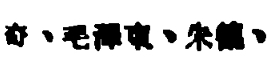奇、毛澤東、朱德、
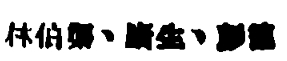林伯渠、康生、彭德
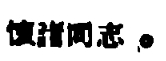懷諸同志。
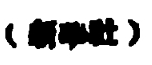（新華社）
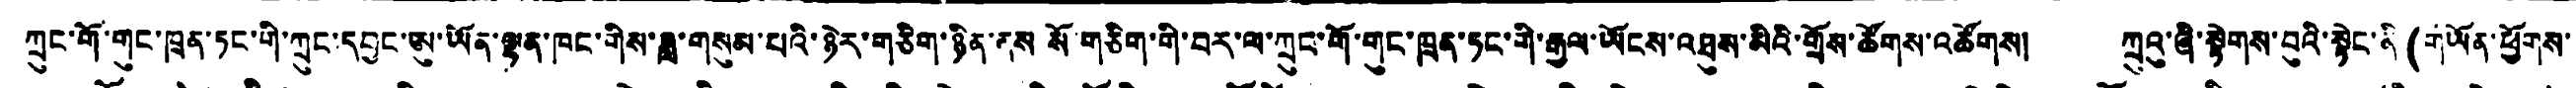ཀྲུང་གོ་གུང་ཁྲན་ཏང་གི་ཀྲུང་དབྱང་ཨུ་ཡོན་ལྷན་ཁང་གིས་ཟླ་གསུམ་པའི་ཉེར་གཅིག་ཉིན་ནས སོ་གཅིག་གི་བར་ལ་ཀྲུང་གོ་གུང་ཁྲན་ཏང་གི་རྒྱལ་ཡོངས་འཐུས་མིའི་གྲོས་ཚོགས་འཚོགས། ཀྲུའུ་ཞི་སྟེགས་བུའི་སྟེང་ནི(གཡོན་ཕྱོགས་
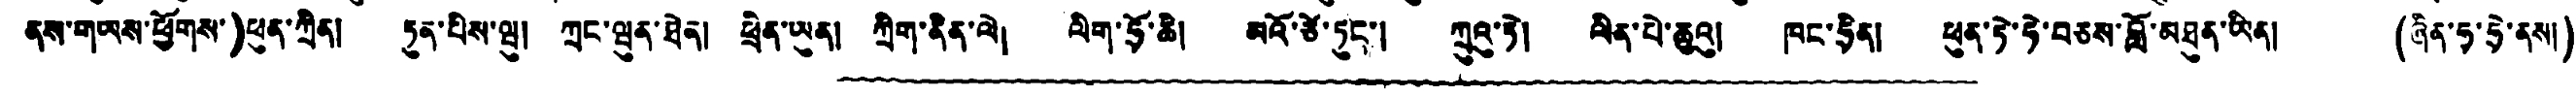ནས་གཡས་ཕྱོགས་)ཕུན་ཀྲིན། ཏུན་པིས་ཝུ། ཀྲང་ཝུན་ཐེན། ཕྲིན་ཡུན། ཀྲིག་ནིན་ལེ། ལིག་ཧྲོ་ཆི། མའོ་ཙེ་ཏུང་། ཀྲུའུ་ཏེ། ལིན་པེ་ཆུའུ། ཁང་ཧྲིན། ཕུན་ཏེ་ཧེ་བཅས་བློ་མཐུན་ཡིན། (ཞིན་ཧྭ་ཧྲེ་ནས།)
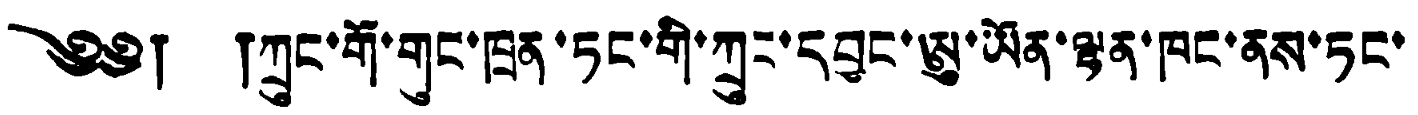༄༅། །ཀྲུང་གོ་གུང་ཁྲན་ཏང་གི་ཀྲུང་དབྱང་ཨུ་ཡོན་ལྷན་ཁང་ནས་ཏང་
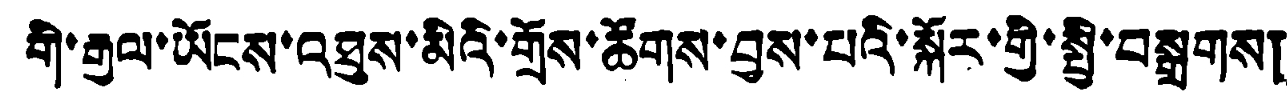གི་རྒྱལ་ཡོངས་འཐུས་མིའི་གྲོས་ཚོགས་བྱས་པའི་སྐོར་གྱི་སྤྱི་བསྒྲགས།
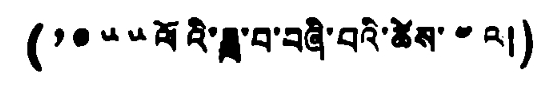(༡༩༥༥ ལོའི་ཟླ་བ་བཞི་པའི་ཚེས་ ༤ ལ།)
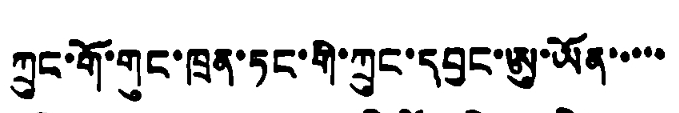ཀྲུང་གོ་གུང་ཁྲན་ཏང་གི་ཀྲུང་དབྱང་ཨུ་ཡོན་་་་་
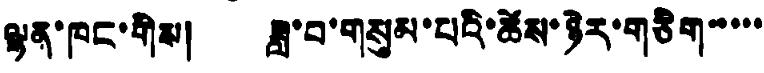ལྷན་ཁང་གིས། ཟླ་བ་གསུམ་པའི་ཚེས་ཉེར་གཅིག་་་་་
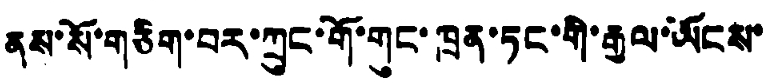ནས་སོ་གཅིག་བར་ཀྲུང་གོ་གུང་ཁྲན་ཏང་གི་རྒྱལ་ཡོངས་
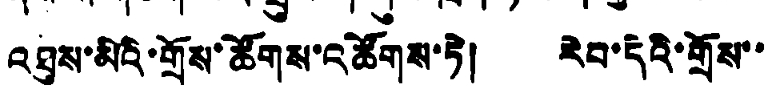འཐུས་མིའི་གྲོས་ཚོགས་འཚོགས་ཏེ། རེབ་དེའི་གྲོས་་
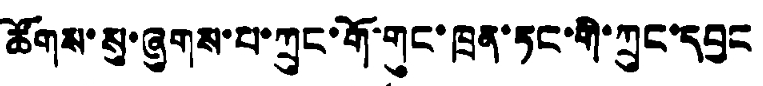ཚོགས་སུ་ཞུགས་པ་ཀྲུང་གོ་གུང་ཁྲན་ཏང་གི་ཀྲུང་དབྱང
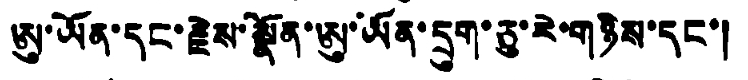ཨུ་ཡོན་དང་རྗེས་སྣོན་ཨུ་ཡོན་དྲུག་ཅུ་རེ་གཉིས་དང་།
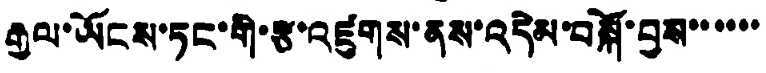རྒྱལ་ཡོངས་ཏང་གི་རྩ་འཛུགས་ནས་འདེམ་བསྐོ་བྱས་་་་་་
